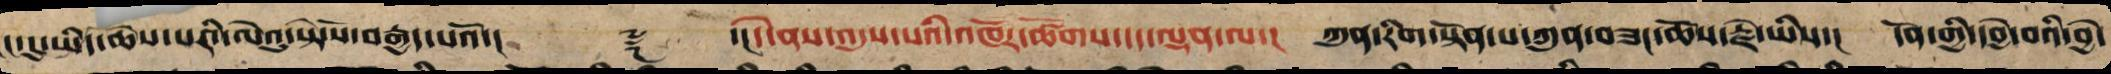ང་དུ་ཡིད་ཆེས་པའི་ལེའུ་སྟེ་སོ་བརྒྱད་པའོ་།།       ༈   ་།།དེ་ནས་འདུས་པའི་འཁོར་ཚོགས་དང་ལྡན་ལ་།  ཀུན་རིག་སྟོན་པ་ཀུན་བཟང་ཆོས་རྗེ་ཡིས་།   དོན་གྱི་དབྱེ་བའི་བྱེ་
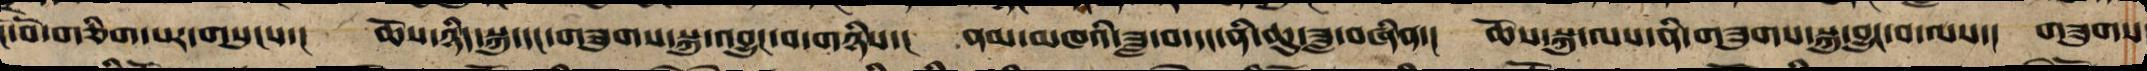ངོ་བོ་གཅིག་པར་གསུངས་།    ཆོས་ཉིད་སྐུ་དང་གཟུགས་སྐུ་འབྱུང་བ་གཉིས་།   ནམ་མཁའི་ཟླ་བ་དང་ནི་ཆུ་ཟླ་བཞིན་།   ཆོས་སྐུ་ལས་ནི་གཟུགས་སྐུ་འབྱུང་བ་ལས་།   གཟུགས
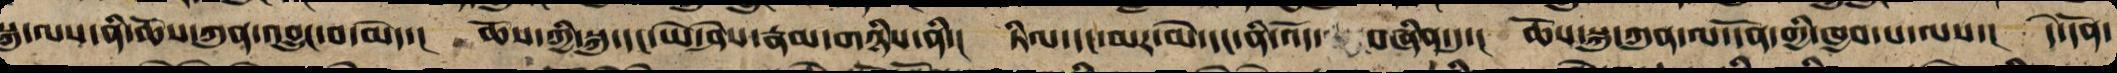སྐུ་ལས་ནི་ཆོས་ཀུན་འབྱུང་བ་མེད་།   ཆོས་ཀྱི་སྐུ་དང་ཡེ་ཤེས་རྣམ་གཉིས་ནི་།  ཏིལ་དང་མར་མེ་དང་ནི་འོད་  བཞིན་དུ་།   ཆོས་སྐུ་ཀུན་ལ་དོན་གྱི་ཁྱབ་པ་ལས་།  དེ་དོན་
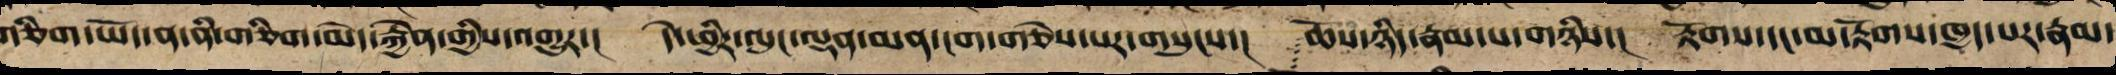གཅིག་ཡོད་ན་ནི་གཅིག་མེད་རྐྱེན་གྱིས་འགྱུར་།   དེ་ཕྱིར་ལུང་ལྡན་མན་ངག་གཅེས་པར་གསུངས་།   ཆོས་ཉིད་རྣམ་པ་གཉིས་།   རྟོགས་དང་མ་རྟོགས་ཁྱད་པར་རྣམ་
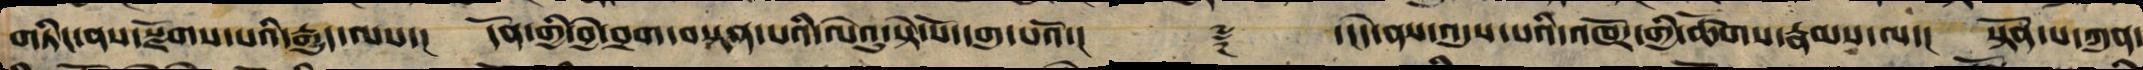གཏིང་ནས་སྫོགས་པའི་རྒྱུད་ལས་། དོན་གྱི་བྱེ་བྲག་བསྟན་པའི་ལེའུ་སྟེ་སོ་དགུ་པའོ་།། ༈ ་།།དེ་ནས་འདུས་པའི་འཁོར་གྱི་ཚོགས་རྣམས་ལ་། སྟོན་པ་ཀུན་
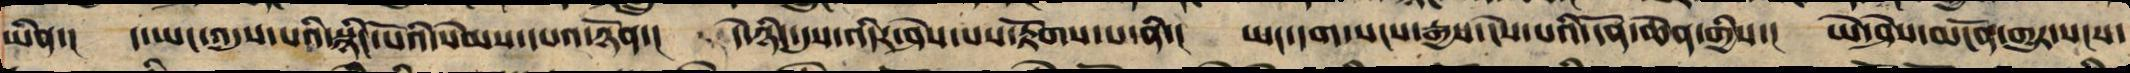ཡིན་། ད་ཡང་འདུས་པའི་སྙིང་པོའི་སེམས་དཔའ་ཉོན། །དེ་ཉིད་དུས་འདིར་ཤེས་པས་རྟོགས་པ་ནི་། ཡང་དག་སངས་རྒྱས་ངེས་པའི་དོན་ཆེན་གྱིས་། ཡེ་ཤེས་མངོན་གྱུར་སངས་
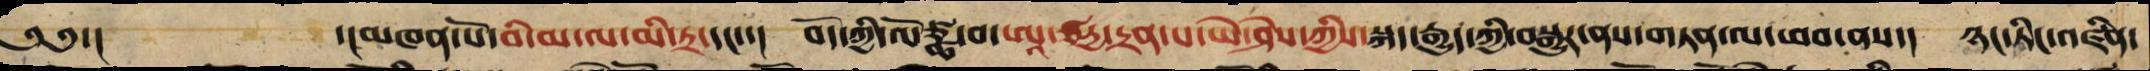༄༅་། ་།མཁན་པོ་བི་མ་ལ་མི་ཏྲ་དང་་། བོད་ཀྱི་ལོ་ཙྪ་བ་ཨཱ་ཙརྱ་དྲན་པ་ཡེ་ཤེས་ཀྱིས་སྐད་རྒྱུད་ཀྱིས་བསྒྱུར་ནས་གཏན་ལ་ཕབ་ནས་། ཉང་ཏིང་འཛིན་
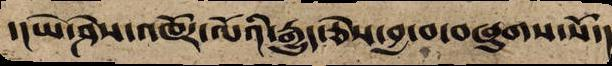་།ཡེ་ཤེས་འཁོར་ལོའི་རྒྱུད་ཅེས་བྱ་བ་བཞུགས་སོ་།
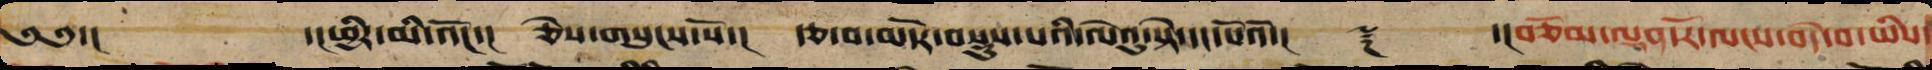༄༄་།            ་།ཕྱིར་མི་འོང་།   ཅེས་གསུངས་སོ་།   རྩ་བ་མདོར་བསྡུས་པའི་ལེའུ་སྟེ་དང་པོའོ་།།     ༈       ་།།བཅོམ་ལྡན་རོ་ལངས་བདེ་བ་ཡིས་
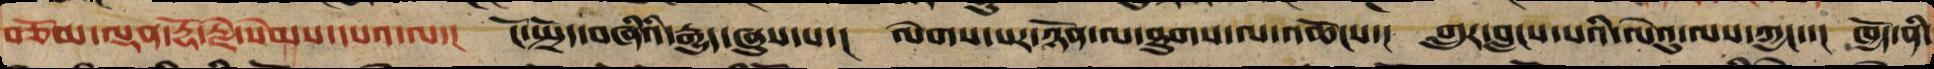བཅོམ་ལྡན་རྡོ་རྗེ་སེམས་དཔའ་ལ་།   ངོ་སྤྲོད་བཞིའི་རྒྱུད་ཞུས་པ་།   ལེགས་པར་ཉོན་ལ་ཐུགས་ལ་འཆོངས་།  གླུར་བླངས་པའི་ལེའུ་ལས་ཀྱང་།  ཁྱོད་ནི་
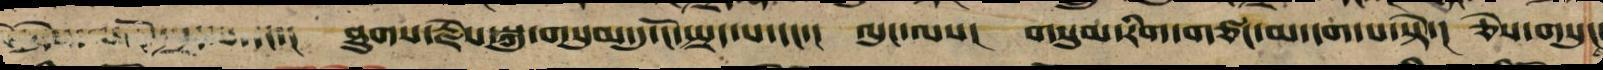ཐུགས་རྗེས་སྐུ་གསུམ་དུ་ངོ་སྤྲད་པ་དང་།   ལུང་ལས།   གསུམ་རིག་གཙང་མ་དག་པ་སྟེ་།   ཅེས་གསུང་
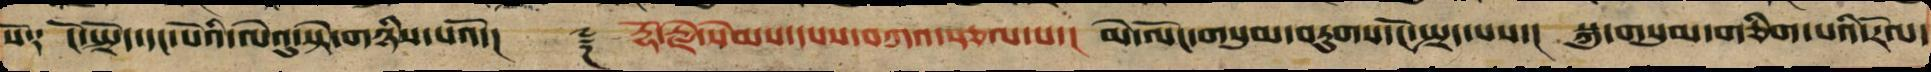སོ༑   ངོ་སྤྲོད་དང་པོའི་ལེའུ་སྟེ་གཉིས་པའོ་།།    ༈  རྡོ་རྗེ་སེམས་དཔས་བཀའ་སྩལ་པ་།  མེ་ལོང་གསུམ་བཏུགས་ངོ་སྤྲད་པས་།   སྐུ་གསུམ་གཅིག་པའི་རོལ་
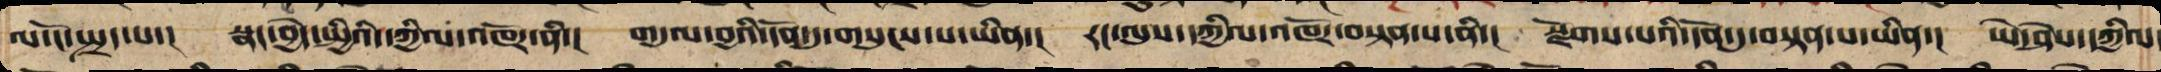ལ་ངོ་སྤྲད་པ་།  སྣང་བྱེད་སྤྱིའི་དཀྱིལ་འཁོར་ནི་།  གདུལ་བྱའི་དོན་དུ་གསུངས་པ་ཡིན་།   རང་ལུས་དཀྱིལ་འཁོར་བསྟན་པ་ནི་།  སྫོགས་པའི་དོན་དུ་བསྟན་པ་ཡིན་།  ཡེ་ཤེས་དཀྱིལ
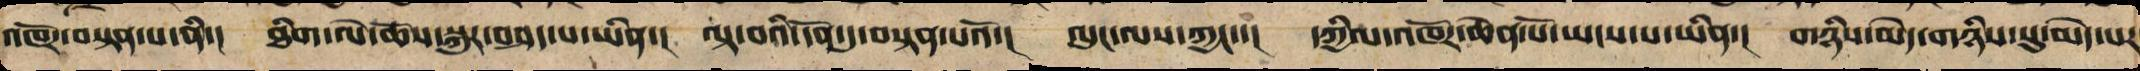འཁོར་བསྟན་པ་ནི་།  ཐིག་ལེ་ཆོས་སྐུར་བཤད་པ་ཡིན་།  ལྟ་བའི་དོན་དུ་བསྟན་པའོ་།  ལུང་ལས་ཀྱང་་།   དཀྱིལ་འཁོར་ཆེན་པོ་ཡངས་པ་ཡིན་།  གཉིས་མེད་གཉིས་སུ་མེད་པར
